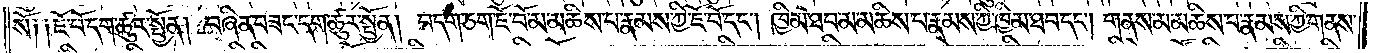སོ༑ ༑ཇོ་བོ་དག་ཚུར་སྤྱོན། བཞིན་བཟང་དག་ཚུར་སྤྱོན། བདག་ཅག་ཇོ་བོ་མ་མཆིས་པ་རྣམས་ཀྱི་ཇོ་བོ་དང༌། ཁྱིམ་ཐབ་མ་མཆིས་པ་རྣམས་ཀྱི་ཁྱིམ་ཐབ་དང༌། གནས་མ་མཆིས་པ་རྣམས་ཀྱི་གནས་
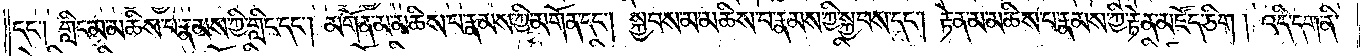དང༌། གླིང་མ་མཆིས་པ་རྣམས་ཀྱི་གླིང་དང༌། མགོན་མ་མཆིས་པ་རྣམས་ཀྱི་མགོན་དང༌། སྐྱབས་མ་མཆིས་པ་རྣམས་ཀྱི་སྐྱབས་དང༌། རྟེན་མ་མཆིས་པ་རྣམས་ཀྱི་རྟེན་མཛོད་ཅིག །འདི་དག་ནི་
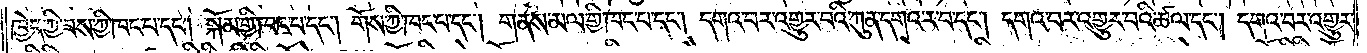ཁྱེད་ཀྱི་ཟས་ཀྱི་ཁང་པ་དང༌། སྐོམ་གྱི་ཁང་པ་དང༌། གོས་ཀྱི་ཁང་པ་དང༌། གནས་མལ་གྱི་ཁང་པ་དང༌། དགའ་བར་འགྱུར་བའི་ཀུན་དགའ་ར་བ་དང༌། དགའ་བར་འགྱུར་བའི་ཚལ་དང༌། དགའ་བར་འགྱུར་
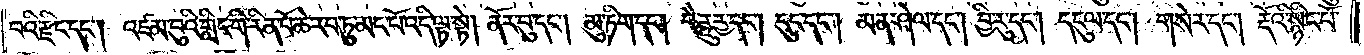བའི་རྫིང་དང༌། འཛམ་བུའི་གླིང་གི་རིན་པོ་ཆེ་རབ་ཏུ་མང་པོ་འདི་ལྟ་སྟེ། ནོར་བུ་དང༌། མུ་ཏིག་དང༌། བཻ་ཌཱུརྱ་དང༌། དུང་དང༌། མན་ཤེལ་དང༌། བྱི་རུ་དང༌། དངུལ་དང༌། གསེར་དང༌། རྡོའི་སྙིང་པོ་
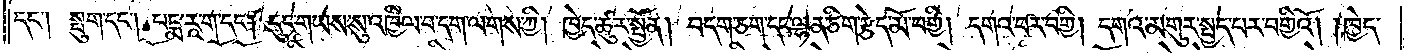དང༌། སྦུག་དང༌། པདྨ་རཱ་ག་དང༌། དུང་གཡས་སུ་འཁྱིལ་བ་དག་ལགས་ཀྱི། ཁྱེད་ཚུར་སྤྱོན། བདག་ཅག་དང་ལྷན་ཅིག་རྩེད་མོ་བགྱི། དགའ་བར་བགྱི། དགའ་མགུར་སྤྱད་པར་བགྱིའོ། །ཁྱེད་
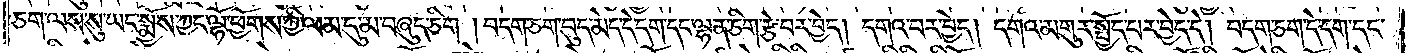ཅག་ལས་སུ་ཡང་སྨྱོས་ཀྱང་ལྷོ་ཕྱོགས་ཀྱི་ལམ་དུ་མ་བཞུད་ཅིག །བདག་ཅག་བུད་མེད་དེ་དག་དང་ལྷན་ཅིག་རྩེ་བར་བྱེད། དགའ་བར་བྱེད། དགའ་མགུར་སྤྱོད་པར་བྱེད་དེ། བདག་ཅག་དེ་དག་དང་
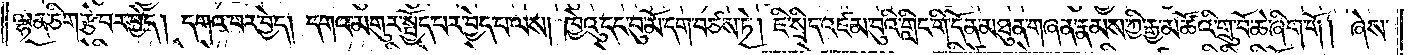ལྷན་ཅིག་རྩེ་བར་བྱེད། དགའ་བར་བྱེད། དགའ་མགུར་སྤྱོད་པར་བྱེད་པ་ལས། ཁྱེའུ་དང་བུ་མོ་དག་བཙས་ཏེ། ཇི་སྲིད་འཛམ་བུའི་གླིང་གི་དོན་མཐུན་གཞན་རྣམས་ཀྱི་རྒྱ་མཚོའི་གྲུ་བོ་ཆེ་ཞིག་གོ། ཞེས་
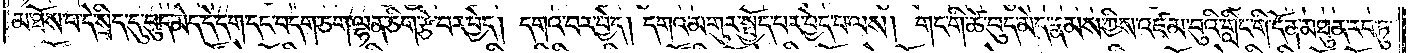མ་ཐོས་པ་དེ་སྲིད་དུ་བུད་མེད་དེ་དག་དང་བདག་ཅག་ལྷན་ཅིག་རྩེ་བར་བྱེད། དགའ་བར་བྱེད། དགའ་མགུར་སྤྱོད་པར་བྱེད་པ་ལས། གང་གི་ཚེ་བུད་མེད་རྣམས་ཀྱིས་འཛམ་བུའི་གླིང་གི་དོན་མཐུན་རབ་ཏུ་
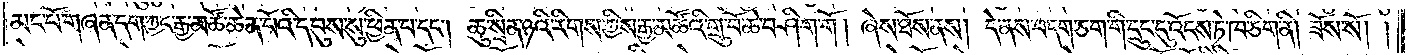མང་པོ་གཞན་དག་ཀྱང་རྒྱ་མཚོ་ཆེན་པོའི་དབུས་སུ་ཕྱིན་པ་དང༌། ཆུ་སྲིན་ཉའི་རིགས་ཀྱིས་རྒྱ་མཚོའི་གྲུ་བོ་ཆེ་བཤིག་གོ །ཞེས་ཐོས་ནས། དེ་ནས་བདག་ཅག་གི་དྲུང་དུ་འོངས་ཏེ་ཁ་ཅིག་ནི། ཟོས་སོ། །
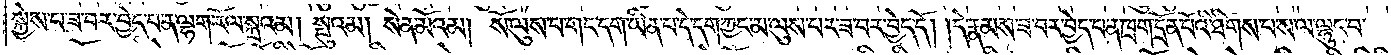སྐྱེས་པ་ཟ་བར་བྱེད་པ་ན་ལྷག་རོལ་སྐྲའམ། སྤུའམ། སེན་མོའམ། སོ་ལུས་པ་གང་དག་ཡིན་པ་དེ་དག་ཀྱང་མ་ལུས་པར་ཟ་བར་བྱེད་དོ། །དེ་རྣམས་ཟ་བར་བྱེད་པ་ན་ཁྲག་དྲོན་པོའི་ཐིགས་པ་ས་ལ་ལྷུང་བ་
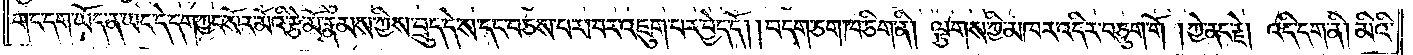གང་དག་ཡོད་ན་ཡང་དེ་དག་ཀྱང་སོར་མོའི་རྩེ་མོ་རྣམས་ཀྱིས་བྲུད་དེ་ས་དང་བཅས་པར་ཁར་འཇུག་པར་བྱེད་དོ། །བདག་ཅག་ཁ་ཅིག་ནི། ལྕགས་ཀྱི་མཁར་འདིར་བཅུག་གོ། །ཀྱེ་ནང་རྗེ། འདི་དག་ནི། མིའི་
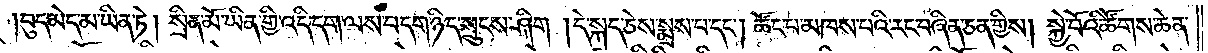།བུད་མེད་མ་ཡིན་ཏེ། སྲིན་མོ་ཡིན་གྱི་འདི་དག་ལས་བདག་ཉིད་སྲུང་ཤིག །དེ་སྐད་ཅེས་སྨྲས་པ་དང༌། ཚོང་པ་མཁས་པའི་རང་བཞིན་ཅན་གྱིས། སྐྱེ་བོའི་ཚོགས་ཆེན་
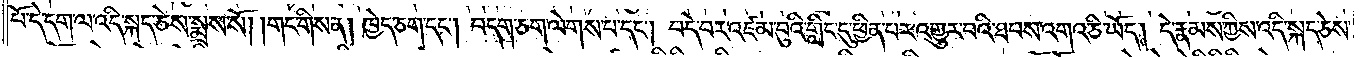པོ་དེ་དག་ལ་འདི་སྐད་ཅེས་སྨྲས་སོ། །གང་གིས་ན། ཁྱེད་ཅག་དང༌། བདག་ཅག་ལེགས་པ་དང༌། བདེ་བར་འཛམ་བུའི་གླིང་དུ་ཕྱིན་པར་འགྱུར་བའི་ཐབས་འགའ་ཅི་ཡོད། དེ་རྣམས་ཀྱིས་འདི་སྐད་ཅེས་
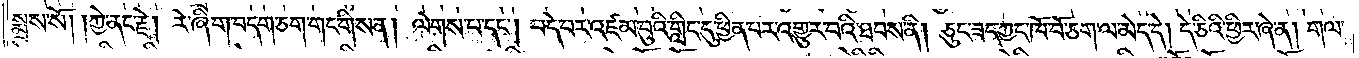སྨྲས་སོ། །ཀྱེ་ནང་རྗེ། རེ་ཞིག་བདག་ཅག་གང་གིས་ན། ལེགས་པ་དང༌། བདེ་བར་འཛམ་བུའི་གླིང་དུ་ཕྱིན་པར་འགྱུར་བའི་ཐབས་ནི། ཅུང་ཟད་ཀྱང་ཁོ་བོ་ཅག་ལ་མེད་དེ། དེ་ཅིའི་ཕྱིར་ཞེ་ན། གལ་
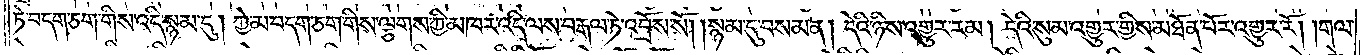ཏེ་བདག་ཅག་གིས་འདི་སྙམ་དུ། ཀྱེ་མ་བདག་ཅག་གིས་ལྕགས་ཀྱི་མཁར་འདི་ལས་བརྒལ་ཏེ་འབྲོས་སོ། །སྙམ་དུ་བསམ་ན། དེའི་ཉིས་འགྱུར་རམ། དེའི་སུམ་འགྱུར་གྱིས་མཐོན་པོར་འགྱུར་རོ། །གལ་
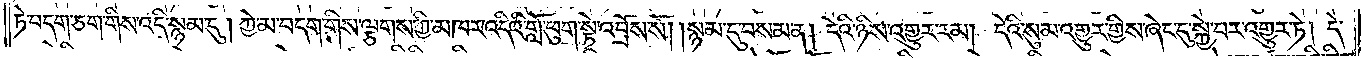ཏེ་བདག་ཅག་གིས་འདི་སྙམ་དུ། ཀྱེ་མ་བདག་ཅག་གིས་ལྕགས་ཀྱི་མཁར་འདི་ལས་བརྒལ་ཏེ་འབྲོས་སོ། །སྙམ་དུ་བསམ་ན། དེའི་ཉིས་འགྱུར་རམ། དེའི་སུམ་འགྱུར་གྱིས་ཞེང་དུ་སྐྱེ་བར་འགྱུར་ཏེ། དེ་
